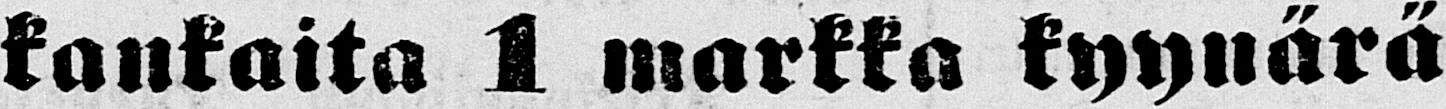kankaita 1 markka kyynärä
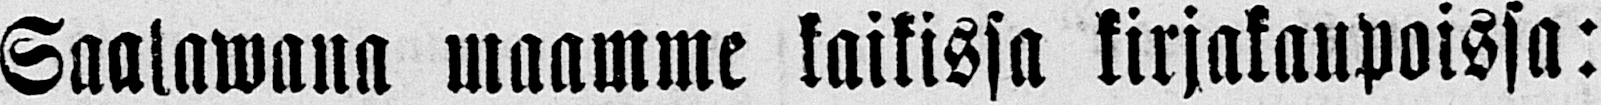Saatawana maamme kaikissa kirjakaupoissa:
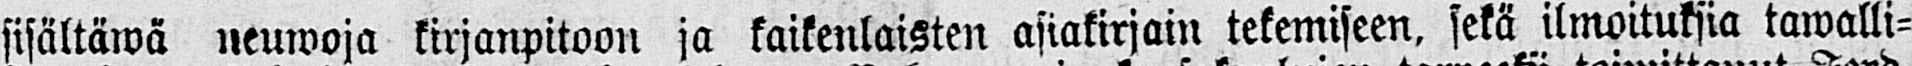sisältäwä neuwoja kirjanpitoon ja kaikenlaisten asiakirjain tekemiseen, sekä ilmoituksia tawalli-
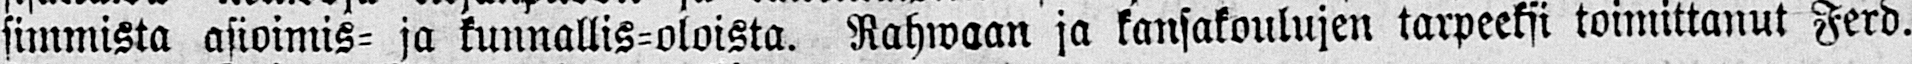simmista asioimis- ja kunnallis-oloista. Rahwaan ja kansakoulujen tarpeeksi toimittanut Ferd.
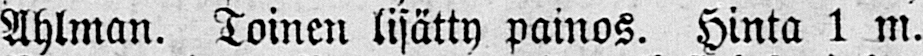Ahlman. Toinen lisätty painos. Hinta 1 m.
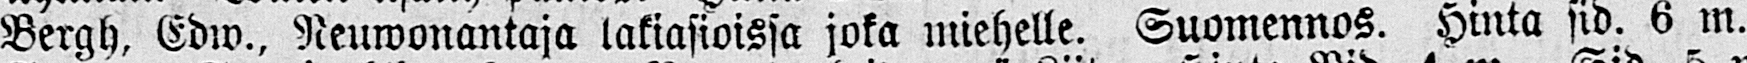Bergh, Edw., Neuwonantaja lakiasioissa joka miehelle. Suomennos, Hinta sid. 6 m.
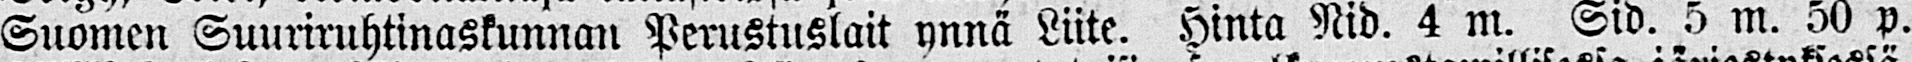Suomen Suuriruhtinaskunnan Perustuslait ynnä Liite. Hinta Nid. 4 m. Sid. 5 m. 50 p.
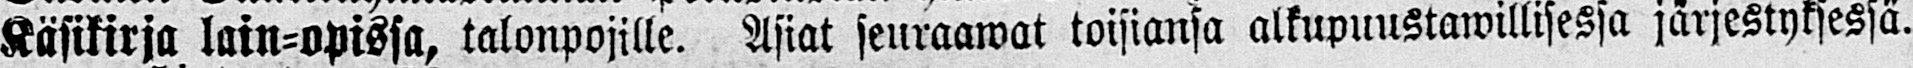Käsikirja lain-opissa, talonpojille. Asiat seuraawat toisiansa alkupuustawillisessa järjestyksessä.
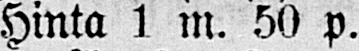Hinta 1 m. 50 p.
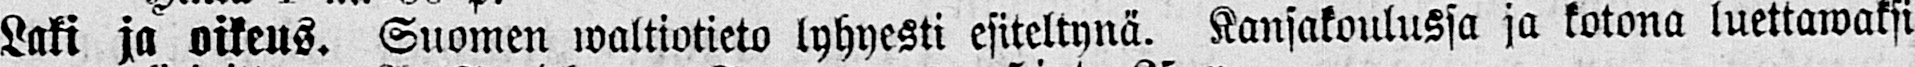Laki ja oikeus. Suomen waltiotieto lyhyesti esiteltynä. Kansakoulussa ja kotona luettawaksi
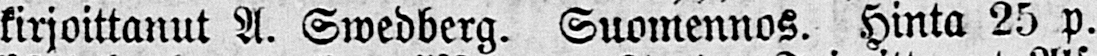kirjoittanut A. Swedberg. Suomennos. Hinta 25 p.
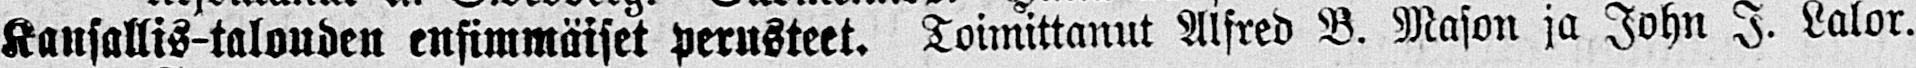Kansallis-talouden ensimmäiset Perusteet. Toimittanut Alfred B. Mason ja John Lalor.
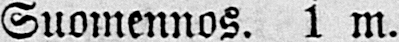Suomennos. 1 m.
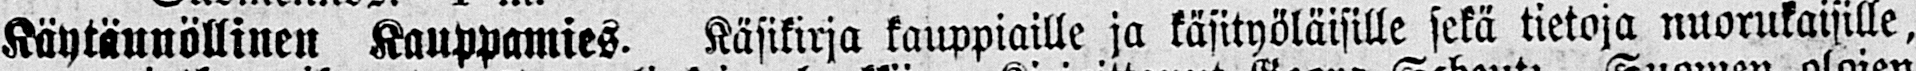Käytännöllinen Kauppamies- Käsikirja kauppiaille ja käsityöläisille sekä tietoja nuorukaisille,
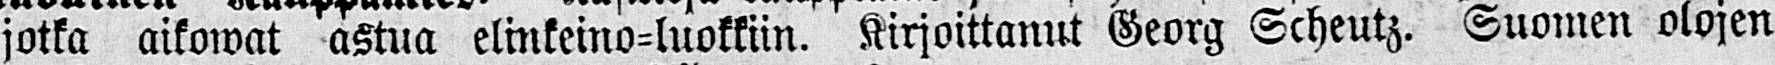jotka aikowat astua elinkeino-luokkiin. Kirjoittanut Georg Scheutz. Suomen olojen
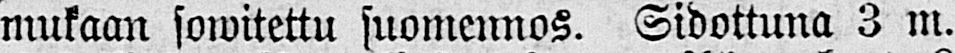mukaan sowitettu suomennos. Sidottuna 3 m.
